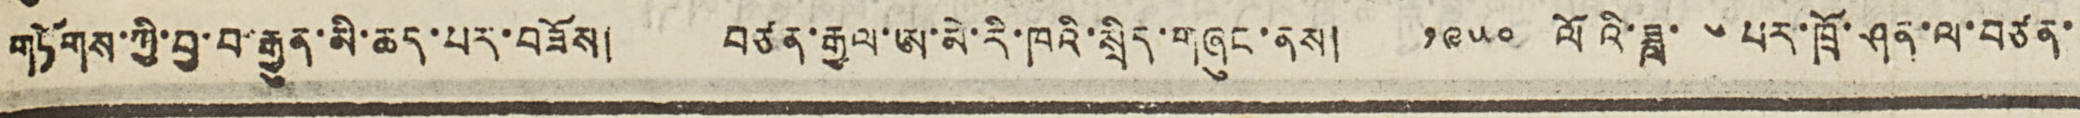གཏོགས་ཀྱི་བྱ་བ་རྒྱུན་མི་ཆད་པར་བཟོས། བཙན་རྒྱལ་ཨ་མེ་རི་ཁའི་སྲིད་གཞུང་ནས། ༡༩༥༠ ལོའི་ཟླ་ ༦ པར་ཁྲོ་ཤན་ལ་བཙན་
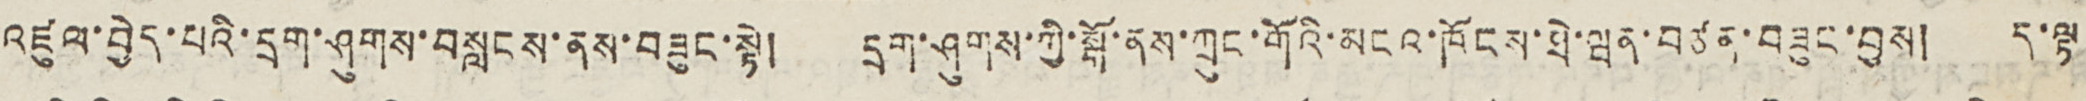འཛུལ་བྱེད་པའི་དྲག་ཤུགས་བསླངས་ནས་བཟུང་སྟེ། དྲག་ཤུགས་ཀྱི་སྒོ་ནས་ཀྲུང་གོའི་མངའ་ཁོངས་ཐེ་ཝན་བཙན་བཟུང་བྱས། ད་ལྟ
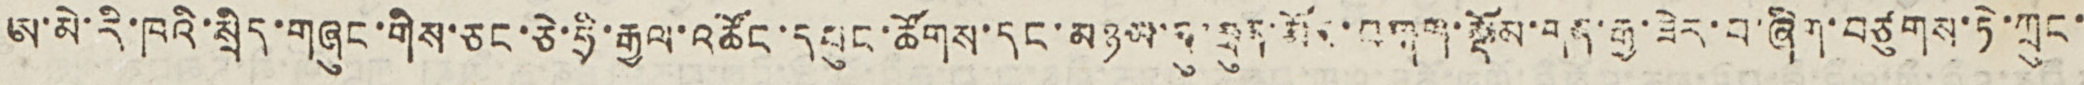ཨ་མེ་རི་ཁའི་སྲིད་གཞུང་གིས་ཅང་ཅེ་ཧྲི་རྒྱལ་འཚོང་དཔུང་ཚོགས་དང་མཉམ་དུ་ཐུན་མོང་བཀག་སྡོམ་གན་རྒྱ་ཟེར་བ་ཞིག་བཙུགས་ཏེ་ཀྲུང་
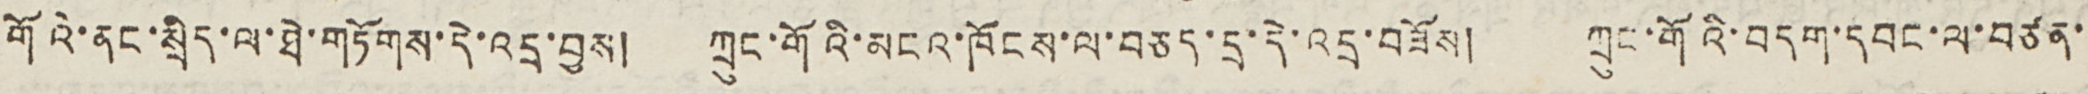གོའི་ནང་སྲིད་ལ་ཐེ་གཏོགས་དེ་འདྲ་བྱས། ཀྲུང་གོའི་མངའ་ཁོངས་ལ་བཅད་དྲ་དེ་འདྲ་བཟོས། ཀྲུང་གོའི་བདག་དབང་ལ་བཙན་
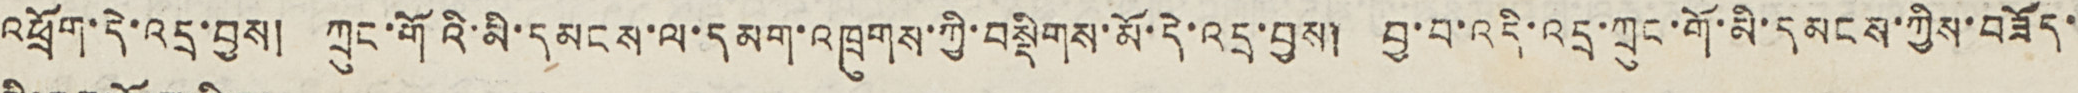འཕྲོག་དེ་འདྲ་བྱས། ཀྲུང་གོའི་མི་དམངས་ལ་དམག་འཁྲུགས་ཀྱི་བསྡེགས་མོ་དེ་འདྲ་བྱས། བྱ་བ་འདི་འདྲ་ཀྲུང་གོ་མི་དམངས་ཀྱིས་བཟོད་
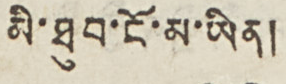མི་ཐུབ་ངོ་མ་ཡིན།
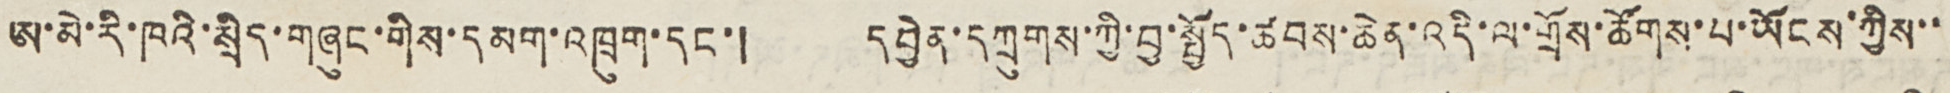ཨ་མེ་རི་ཁའི་སྲིད་གཞུང་གིས་དམག་འཁྲུག་དང་། དབྱེན་དཀྲུགས་ཀྱི་བྱ་སྤྱོད་ཚབས་ཆེན་འདི་ལ་གྲོས་ཚོགས་པ་ཡོངས་ཀྱིས་་
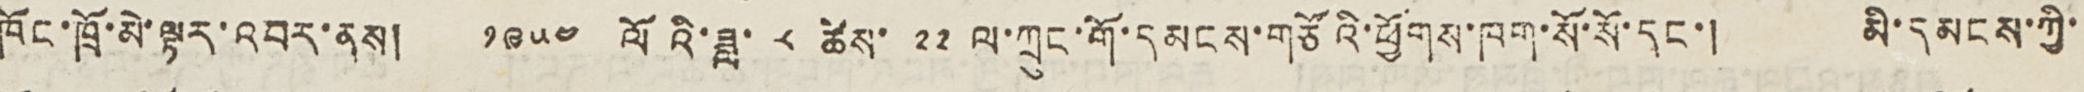ཁོང་ཁྲོ་མེ་ལྟར་འབར་ནས། ༡༩༥༤ ལོའི་ཟླ་ ༨ ཚེས་ ༢༢ ལ་ཀྲུང་གོ་དམངས་གཙོའི་ཕྱོགས་ཁག་སོ་སོ་དང་། མི་དམངས་ཀྱི་
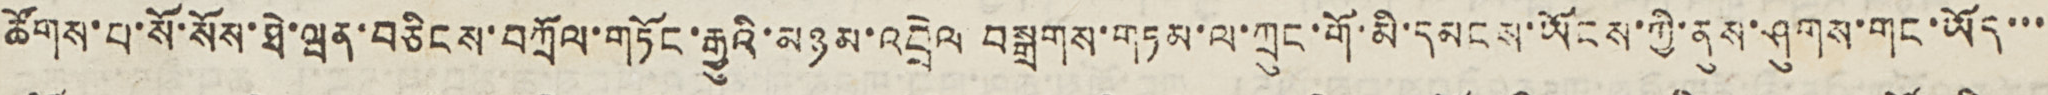ཚོགས་པ་སོ་སོས་ཐེ་ཝན་བཅིངས་བཀྲོལ་གཏོང་རྒྱུའི་མཉམ་འབྲེལ བསྒྲགས་གཏམ་ལ་ཀྲུང་གོ་མི་དམངས་ཡོངས་ཀྱི་ནུས་ཤུགས་གང་ཡོད་་་
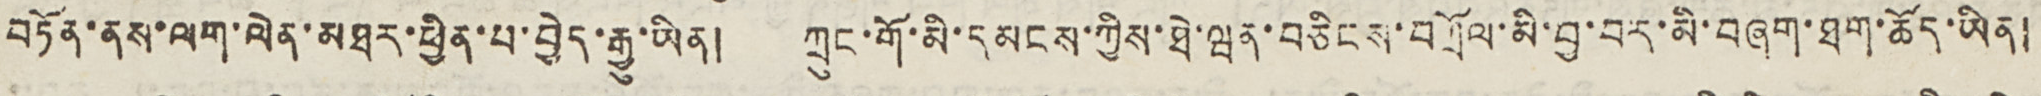བཏོན་ནས་ལག་ལེན་མཐར་ཕྱིན་པ་བྱེད་རྒྱུ་ཡིན། ཀྲུང་གོ་མི་དམངས་ཀྱིས་ཐེ་ཝན་བཅིངས་བཀྲོལ་མི་བྱ་བར་མི་བཞག་ཐག་ཚོད་ཡིན།
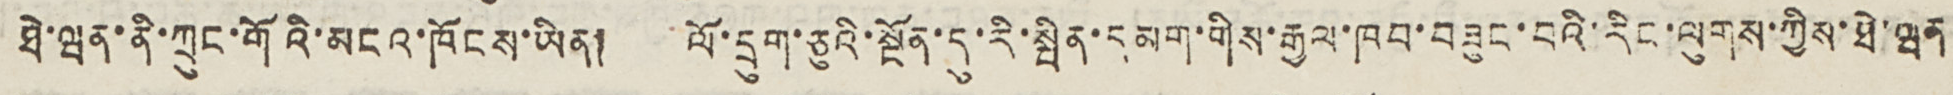ཐེ་ཝན་ནི་ཀྲུང་གོའི་མངའ་ཁོངས་ཡིན། ལོ་དྲུག་ཅུའི་སྔོན་དུ་རི་སྤིན་དམག་གིས་རྒྱལ་ཁབ་བཟུང་བའི་རིང་ལུགས་ཀྱིས་ཐེ་ཝན
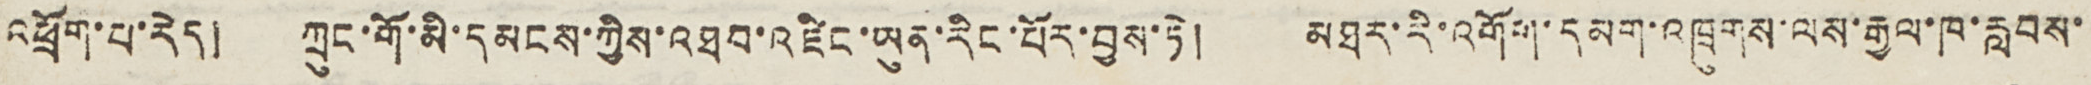འཕྲོག་པ་རེད། ཀྲུང་གོ་མི་དམངས་ཀྱིས་འཐབ་འཛིང་ཡུན་རིང་པོར་བྱས་ཏེ། མཐར་རི་འགོག་དམག་འཁྲུགས་ལས་རྒྱལ་ཁ་རླབས་
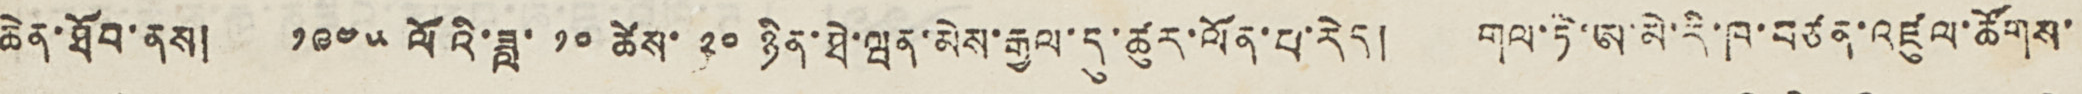ཆེན་ཐོབ་ནས། ༡༩༤༥ ལོའི་ཟླ་ ༡༠ ཚེས་ ༢༠ ཉིན་ཐེ་ཝན་མེས་རྒྱལ་དུ་ཚུར་ལོན་པ་རེད། གལ་ཏེ་ཨ་མེ་རི་ཁ་བཙན་འཛུལ་ཚོགས་
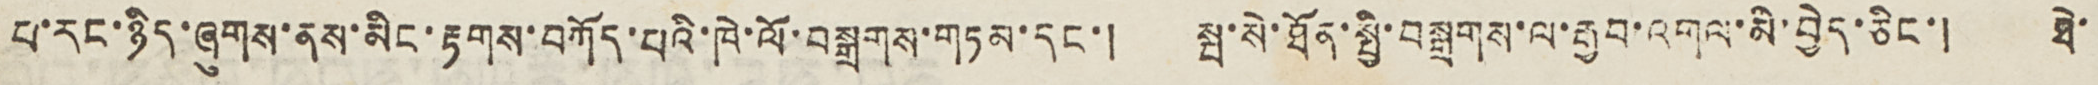པ་རང་ཉིད་ཞུགས་ནས་མིང་རྟགས་བཀོད་པའི་ཁེ་ལོ་བསྒྲགས་གཏམ་དང་། སྤ་སེ་ཐོན་སྤྱི་བསྒྲགས་ལ་རྒྱབ་འགལ་མི་བྱེད་ཅིང་། ཐེ་
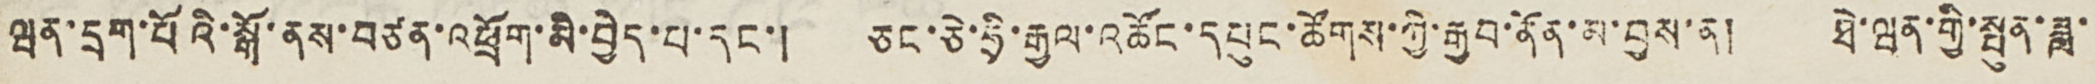ཝན་དྲག་པོའི་སྒོ་ནས་བཙན་འཕྲོག་མི་བྱེད་པ་དང་། ཅང་ཅེ་ཧྲི་རྒྱལ་འཚོང་དཔུང་ཚོགས་ཀྱི་རྒྱབ་ནོན་མ་བྱས་ན། ཐེ་ཝན་གྱི་སྤུན་ཟླ་
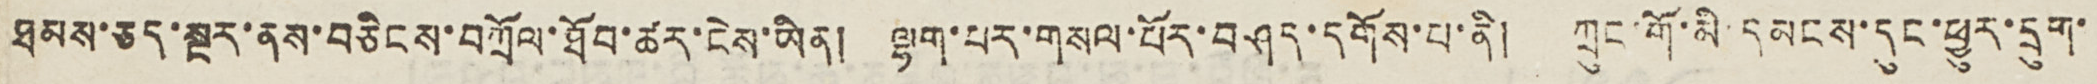ཐམས་ཅད་སྔར་ནས་བཅིངས་བཀྲོལ་ཐོབ་ཚར་ངེས་ཡིན། ལྷག་པར་གསལ་པོར་བཤད་དགོས་པ་ནི། ཀྲུང་གོ་མི་དམངས་དུང་ཕྱུར་དྲུག་
